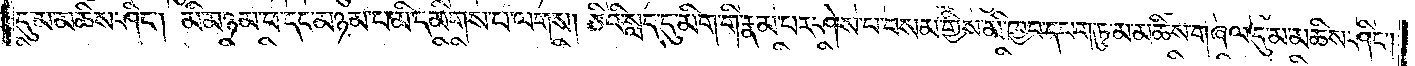དུ་མ་མཆིས་ཤིང༌། མི་མཉམ་པ་དང་མཉམ་པ་མི་དམིགས་པ་ལགས། ཅིའི་སླད་དུ་མིག་གི་རྣམ་པར་ཤེས་པ་བསམ་གྱིས་མི་ཁྱབ་དཔག་ཏུ་མ་མཆིས་གཞལ་དུ་མ་མཆིས་ཤིང༌།
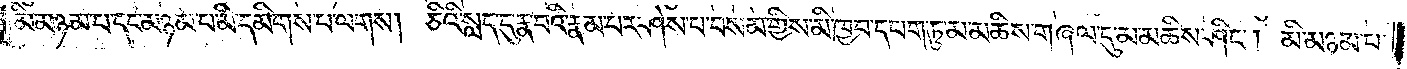མི་མཉམ་པ་དང་མཉམ་པ་མི་དམིགས་པ་ལགས། ཅིའི་སླད་དུ་རྣ་བའི་རྣམ་པར་ཤེས་པ་བསམ་གྱིས་མི་ཁྱབ་དཔག་ཏུ་མ་མཆིས་གཞལ་དུ་མ་མཆིས་ཤིང༌། མི་མཉམ་པ་
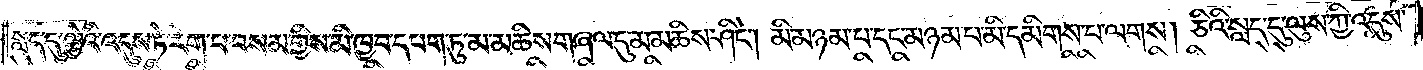སླད་དུ་ལྕེའི་འདུས་ཏེ་རེག་པ་བསམ་གྱིས་མི་ཁྱབ་དཔག་ཏུ་མ་མཆིས་གཞལ་དུ་མ་མཆིས་ཤིང༌། མི་མཉམ་པ་དང་མཉམ་པ་མ་དམིགས་པ་ལགས། ཅིའི་སླད་དུ་ལུས་ཀྱི་འདུས་
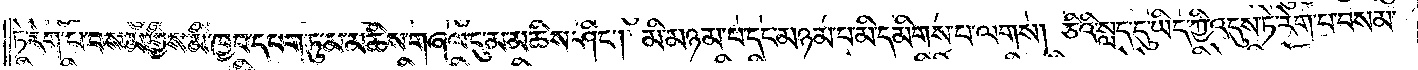ཏེ་རེག་པ་བསམ་གྱིས་མི་ཁྱབ་དཔག་ཏུ་མ་མཆིས་གཞལ་དུ་མ་མཆིས་ཤིང༌། མི་མཉམ་པ་དང་མཉམ་པ་མི་དམིགས་པ་ལགས། ཅིའི་སླད་དུ་ཡིད་ཀྱི་འདུས་ཏེ་རེག་པ་བསམ་
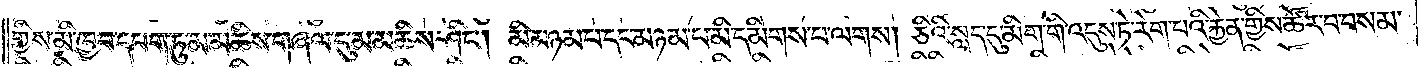གྱིས་མི་ཁྱབ་དཔག་ཏུ་མ་མཆིས་གཞལ་དུ་མ་མཆིས་ཤིང༌། མི་མཉམ་པ་དང་མཉམ་པ་མི་དམིགས་པ་ལགས། ཅིའི་སླད་དུ་མིག་གི་འདུས་ཏེ་རེག་པའི་རྐྱེན་གྱིས་ཚོར་བ་བསམ་
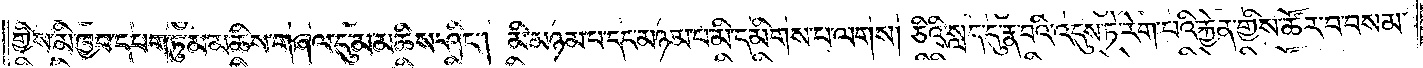གྱིས་མི་ཁྱབ་དཔག་ཏུ་མ་མཆིས་གཞལ་དུ་མ་མཆིས་ཤིང༌། མི་མཉམ་པ་དང་མཉམ་པ་མི་དམིགས་པ་ལགས། ཅིའི་སླད་དུ་རྣ་བའི་འདུས་ཏེ་རེག་པའི་རྐྱེན་གྱིས་ཚོར་བ་བསམ་
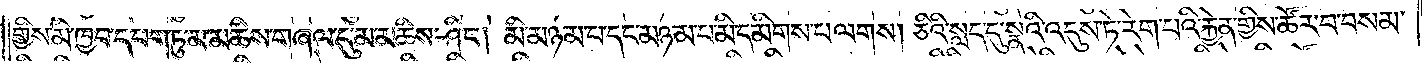གྱིས་མི་ཁྱབ་དཔག་ཏུ་མ་མཆིས་གཞལ་དུ་མ་མཆིས་ཤིང༌། མི་མཉམ་པ་དང་མཉམ་པ་མི་དམིགས་པ་ལགས། ཅིའི་སླད་དུ་སྣའི་འདུས་ཏེ་རེག་པའི་རྐྱེན་གྱིས་ཚོར་བ་བསམ་
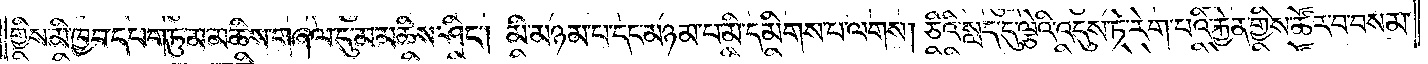གྱིས་མི་ཁྱབ་དཔག་ཏུ་མ་མཆིས་གཞལ་དུ་མ་མཆིས་ཤིང༌། མི་མཉམ་པ་དང་མཉམ་པ་མི་དམིགས་པ་ལགས། ཅིའི་སླད་དུ་ལྕེའི་འདུས་ཏེ་རེག་པའི་རྐྱེན་གྱིས་ཚོར་བ་བསམ་
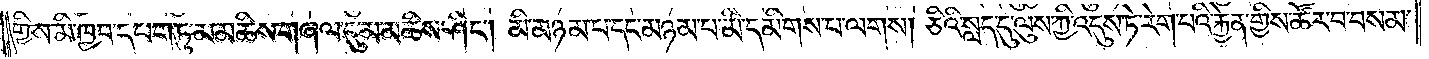གྱིས་མི་ཁྱབ་དཔག་ཏུ་མ་མཆིས་གཞལ་དུ་མ་མཆིས་ཤིང༌། མི་མཉམ་པ་དང་མཉམ་པ་མི་དམིགས་པ་ལགས། ཅིའི་སླད་དུ་ལུས་ཀྱི་འདུས་ཏེ་རེག་པའི་རྐྱེན་གྱིས་ཚོར་བ་བསམ་
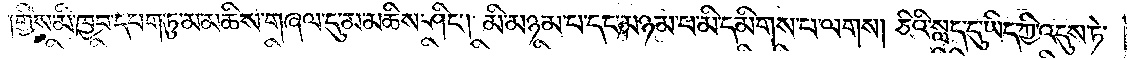གྱིས་མི་ཁྱབ་དཔག་ཏུ་མ་མཆིས་གཞལ་དུ་མ་མཆིས་ཤིང༌། མི་མཉམ་པ་དང་མཉམ་པ་མི་དམིགས་པ་ལགས། ཅིའི་སླད་དུ་ཡིད་ཀྱི་འདུས་ཏེ་
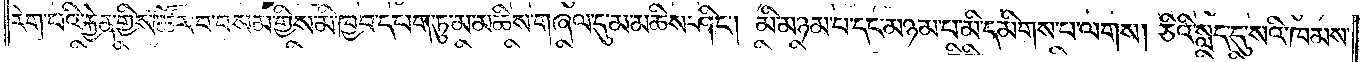རེག་པའི་རྐྱེན་གྱིས་ཚོར་བ་བསམ་གྱིས་མི་ཁྱབ་དཔག་ཏུ་མ་མཆིས་གཞལ་དུ་མ་མཆིས་ཤིང༌། མི་མཉམ་པ་དང་མཉམ་པ་མི་དམིགས་པ་ལགས། ཅིའི་སླད་དུ་སའི་ཁམས་
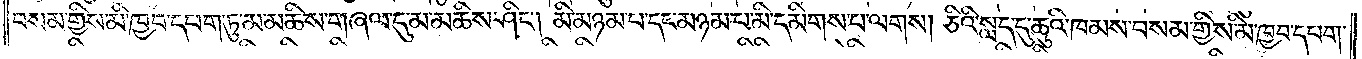བསམ་གྱིས་མི་ཁྱབ་དཔག་ཏུ་མ་མཆིས་གཞལ་དུ་མ་མཆིས་ཤིང༌། མི་མཉམ་པ་དང་མཉམ་པ་མི་དམིགས་པ་ལགས། ཅིའི་སླད་དུ་ཆུའི་ཁམས་བསམ་གྱིས་མི་ཁྱབ་དཔག་
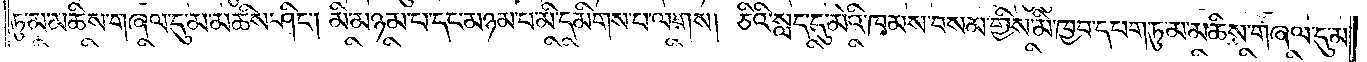ཏུ་མ་མཆིས་གཞལ་དུ་མ་མཆིས་ཤིང༌། མི་མཉམ་པ་དང་མཉམ་པ་མི་དམིགས་པ་ལགས། ཅིའི་སླད་དུ་མེའི་ཁམས་བསམ་གྱིས་མི་ཁྱབ་དཔག་ཏུ་མ་མཆིས་གཞལ་དུ་མ་
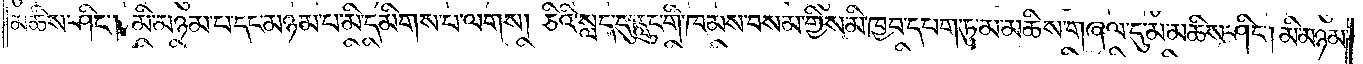མཆིས་ཤིང༌། མི་མཉམ་པ་དང་མཉམ་པ་མི་དམིགས་པ་ལགས། ཅིའི་སླད་དུ་རླུང་གི་ཁམས་བསམ་གྱིས་མི་ཁྱབ་དཔག་ཏུ་མ་མཆིས་གཞལ་དུ་མ་མཆིས་ཤིང༌། མི་མཉམ་
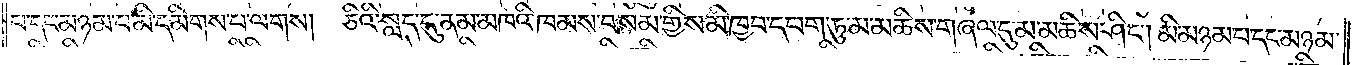པ་དང་མཉམ་པ་མི་དམིགས་པ་ལགས། ཅིའི་སླད་དུ་ནམ་མཁའི་ཁམས་བསམ་གྱིས་མི་ཁྱབ་དཔག་ཏུ་མ་མཆིས་གཞལ་དུ་མ་མཆིས་ཤང༌། མི་མཉམ་པ་དང་མཉམ་
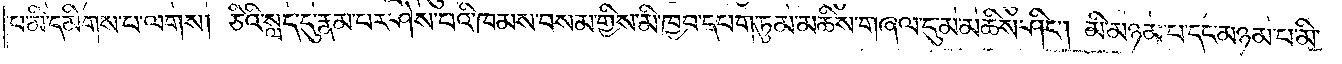པ་མི་དམིགས་པ་ལགས། ཅིའི་སླད་དུ་རྣམ་པར་ཤེས་པའི་ཁམས་བསམ་གྱིས་མི་ཁྱབ་དཔག་ཏུ་མ་མཆིས་གཞལ་དུ་མ་མཆིས་ཤིང༌། མི་མཉམ་པ་དང་མཉམ་པ་མི་
